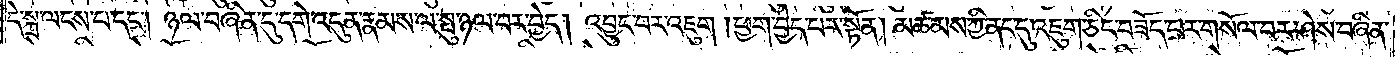དེ་སྐྲ་ལངས་པ་དང༌། ཉལ་བཞིན་དུ་དགེ་འདུན་རྣམས་ལ་སྤུ་ཉལ་བར་བྱེད། འབྱུང་བར་འཇུག །ཕྱག་བྱེད་པར་སྟོན། མཚམས་ཀྱི་ནང་དུ་འཇུག་ཅིང་བཟོད་པར་གསོལ་བར་ཤེས་བཞིན་
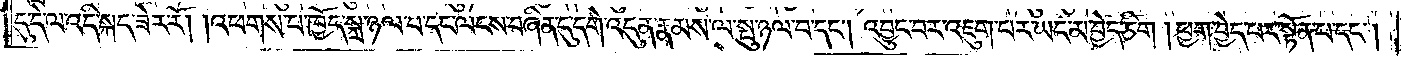དུ་དེ་ལ་འདི་སྐད་ཟེར་རོ། །འཕགས་པ་ཁྱོད་སྐྲ་ཉལ་བ་དང་ལངས་བཞིན་དུ་དགེ་འདུན་རྣམས་ལ་སྤུ་ཉལ་བ་དང༌། འབྱུང་བར་འཇུག་པར་ཡང་མ་བྱེད་ཅིག །ཕྱག་བྱེད་པར་སྟོན་པ་དང༌།
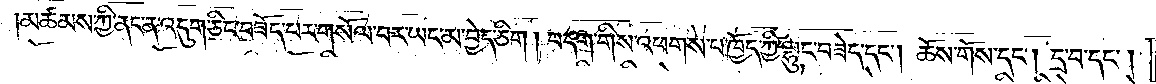མཚམས་ཀྱི་ནང་ན་འདུག་ཅིང་བཟོད་པར་གསོལ་བར་ཡང་མ་བྱེད་ཅིག །བདག་གིས་འཕགས་པ་ཁྱོད་ཀྱི་ལྷུང་བཟེད་དང༌། ཆོས་གོས་དང༌། དྲ་བ་དང༌།
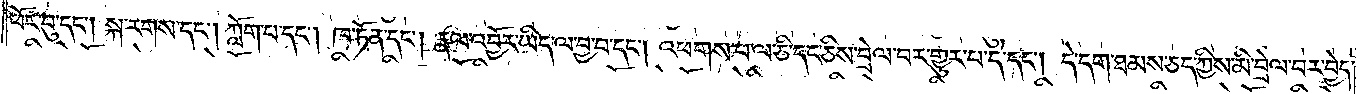ཕོར་བུ་དང༌། སྐ་རགས་དང༌། ཀློག་པ་དང༌། ཁ་ཏོན་དང༌། རྣལ་འབྱོར་ཡིད་ལ་བྱ་བ་དང༌། འཕགས་པ་ལ་ཅི་དང་ཅིས་བྲེལ་བར་གྱུར་པ་དེ་དང༌། དེ་དག་ཐམས་ཅད་ཀྱིས་མི་བྲེལ་བར་བྱེད་
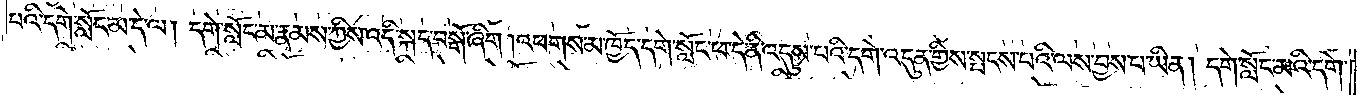པའི་དགེ་སློང་མ་དེ་ལ། དགེ་སློང་མ་རྣམས་ཀྱིས་འདི་སྐད་བསྒོ་ཞིག །འཕགས་མ་ཁྱོད་དགེ་སློང་ཕ་དེ་ནི་འདུས་པའི་དགེ་འདུན་གྱིས་སྤངས་པའི་ལས་བྱས་པ་ཡིན། དགེ་སློང་མའི་དགེ་
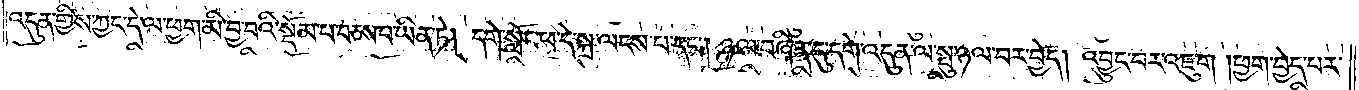འདུན་གྱིས་ཀྱང་དེ་ལ་ཕྱག་མི་བྱ་བའི་སྡོམ་པ་བཅས་པ་ཡིན་ཏེ། དགེ་སློང་ཕ་དེ་སྐྲ་ལངས་པ་དང༌། ཉལ་བཞིན་དུ་དགེ་འདུན་ལ་སྤུ་ཉལ་བར་བྱེད། འབྱུང་བར་འཇུག །ཕྱག་བྱེད་པར་
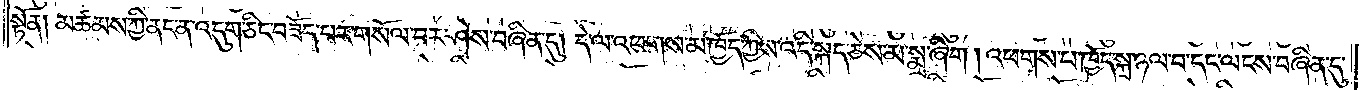སྟོན། མཚམས་ཀྱི་ནང་ན་འདུག་ཅིང་བཟོད་པར་གསོལ་བར་ཤེས་བཞིན་དུ། དེ་ལ་འཕགས་མ་ཁྱོད་ཀྱིས་འདི་སྐད་ཅེས་མ་སྨྲ་ཞིག །འཕགས་པ་ཁྱོད་སྐྲ་ཉལ་བ་དང་ལངས་བཞིན་དུ་
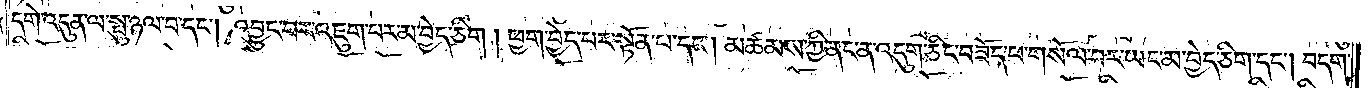དགེ་འདུན་ལ་སྤུ་ཉལ་བ་དང༌། འབྱུང་བར་འཇུག་པར་མ་བྱེད་ཅིག །ཕྱག་བྱེད་པར་སྟོན་པ་དང༌། མཚམས་ཀྱི་ནང་ན་འདུག་ཅིང་བཟོད་པ་གསོལ་བར་ཡང་མ་བྱེད་ཅིག་དང༌། བདག་
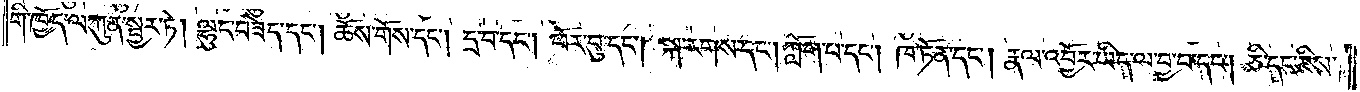གི་ཁྱོད་ལ་ཀུན་སྦྱར་ཏེ། ལྷུང་བཟེད་དང༌། ཆོས་གོས་དང༌། དྲ་བ་དང༌། ཕོར་བུ་དང༌། སྐ་རགས་དང༌། ཀློག་པ་དང༌། ཁ་ཏོན་དང༌། རྣལ་འབྱོར་ཡིད་ལ་བྱ་བ་དང༌། ཅི་དང་ཅིས་
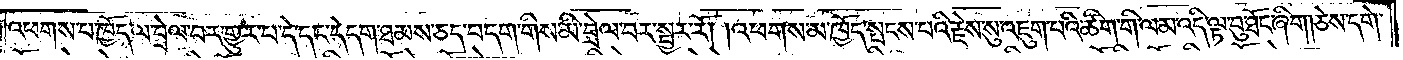འཕགས་པ་ཁྱོད་ལ་བྲེལ་བར་གྱུར་པ་དེ་དང་དེ་དག་ཐམས་ཅད་བདག་གིས་མི་བྲེལ་བར་སྦྱར་རོ། །འཕགས་མ་ཁྱོད་སྤངས་པའི་རྗེས་སུ་འཇུག་པའི་ཚིག་གི་ལམ་འདི་ལྟ་བུ་ཐོང་ཞིག །ཅེས་དགེ་
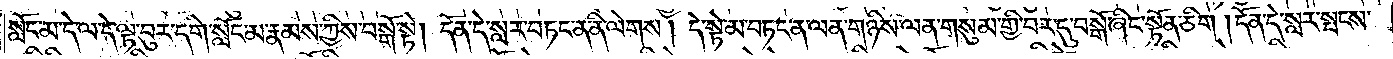སློང་མ་དེ་ལ་དེ་ལྟ་བུར་དགེ་སློང་མ་རྣམས་ཀྱིས་བསྒོ་སྟེ། དོན་དེ་སླར་བཏང་ན་ནི་ལེགས། དེ་སྟེ་མ་བཏང་ན་ལན་གཉིས་ལན་གསུམ་གྱི་བར་དུ་བསྒོ་ཞིང་སྟོན་ཅིག །དོན་དེ་སླར་སྤངས་
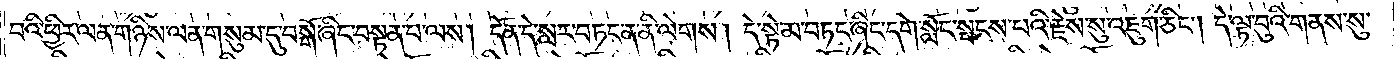བའི་ཕྱིར་ལན་གཉིས་ལན་གསུམ་དུ་བསྒོ་ཞིང་བསྟན་པ་ལས། དོན་དེ་སླར་བཏང་ན་ནི་ལེགས། དེ་སྟེ་མ་བཏང་ཞིང་དགེ་སློང་སྤངས་པའི་རྗེས་སུ་འཇུག་ཅིང༌། དེ་ལྟ་བུའི་གནས་སུ་
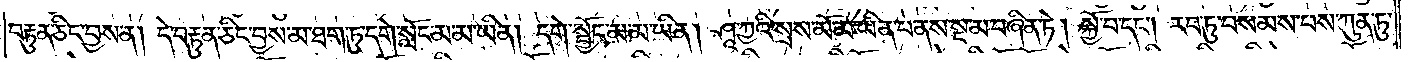བརྟུན་ཅིང་བྱས་ན། དེ་བརྟུན་ཅིང་བྱས་མ་ཐག་ཏུ་དགེ་སློང་མ་མ་ཡིན། དགེ་སྦྱོང་མ་མ་ཡིན། ཤཱཀྱའི་སྲས་མོ་མ་ཡིན་པ་ནས་སྔ་མ་བཞིན་ཏེ། སྐྱོ་བ་དང༌། རབ་ཏུ་བསམས་པས་ཀུན་ཏུ་
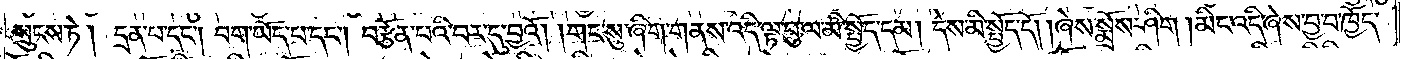སྲུངས་ཏེ། དྲན་པ་དང༌། བག་ཡོད་པ་དང༌། བརྩོན་པའི་བར་དུ་བྱའོ། །གང་སུ་ཞིག་གནས་འདི་ལྟ་བུ་ལ་མི་སྤྱོད་དམ། དེས་མི་སྤྱོད་དོ། །ཞེས་སྨྲོས་ཤིག །མིང་འདི་ཞེས་བྱ་བ་ཁྱོད་
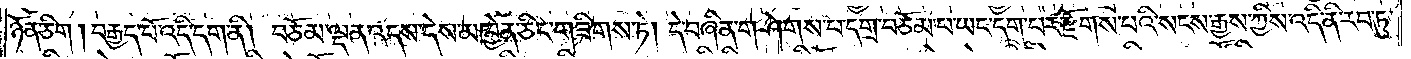ཉོན་ཅིག །བརྒྱད་པོ་འདི་དག་ནི། བཅོམ་ལྡན་འདས་དེས་མཁྱེན་ཅིང་གཟིགས་ཏེ། དེ་བཞིན་གཤེགས་པ་དགྲ་བཅོམ་པ་ཡང་དག་པར་རྫོགས་པའི་སངས་རྒྱས་ཀྱིས་འདི་ནི་རབ་ཏུ་
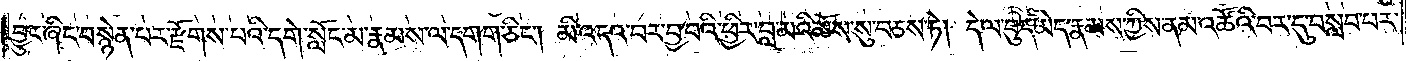བྱུང་ཞིང་བསྙེན་པར་རྫོགས་པའི་དགེ་སློང་མ་རྣམས་ལ་དགག་ཅིང༌། མི་འདའ་བར་བྱ་བའི་ཕྱིར་བླ་མའི་ཆོས་སུ་བཅས་ཏེ། དེ་ལ་བུད་མེད་རྣམས་ཀྱིས་ནམ་འཚོའི་བར་དུ་བསླབ་པར་
